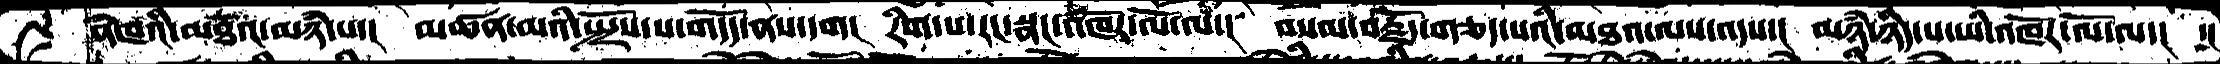ནཾཁའི་མཐའ་མཉཾ་པ་། མཚན་མའི་སྤྲོས་པ་གདོད་ནས་དག། རིག་པ་རང་སྣང་འཁོར་ལོ་ལ་། བསམ་བརྗོད་གཅད་པའི་མཐའ་ལས་འདས་། མཉཾ་ཉིད་པ་ཡི་འཁོར་ལོ་ལ་། ་།
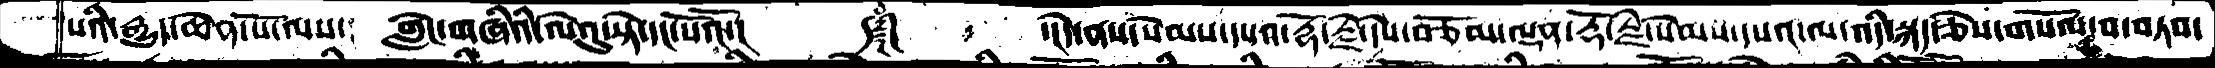པའི་རྒྱུད་ཆེན་པོ་ལས་། གླེང་གཞིའི་ལེའུ་སྟེ་དང་པོའོ་།     ༼༈༽   ་།དེ་ནས་སེམས་དཔའ་རྡོ་རྗེ་དེས་བཅོམ་ལྡན་རྡོ་རྗེ་སེམས་དཔའ་ལ་འདི་སྐད་ཅེས་གསོལ་བ་བཏབ་
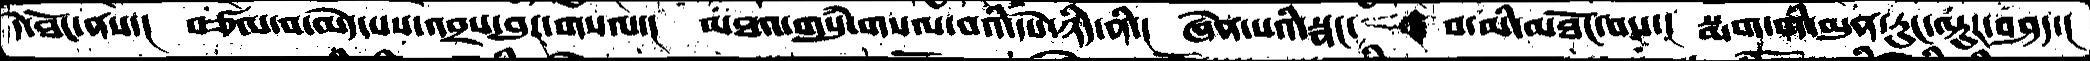དེ་ཐོང་ནས་། བཙལ་བ་མེད་པས་འབྲས་བུར་གསལ་། མཐའ་གསུཾ་གསལ་བའི་དཔེ་ཉིད་ནི་། ཞེན་པའི་སྣང་  བ་མི་མཐོང་བས་། སྨག་གི་མུན་རུང་ལྟུར་བཤད་།
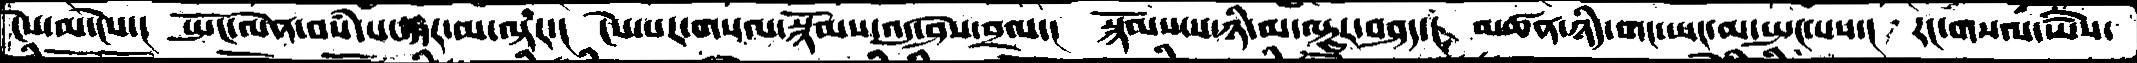ངེས་མ་ངེས་། སྤོང་ལེན་བསཾ་པ་སྐར་མ་ལྟར་། ངེས་པར་གསལ་སྙོམས་འདུ་ཤེས་བྲལ་། སྙོམས་པ་ཉི་མ་ལྟུར་བཤད་། མཚན་ཉིད་གང་ཡང་མ་སྤང་པས་། རང་གསལ་ཡཻས་
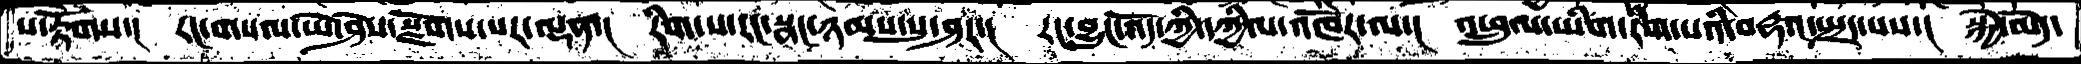པ་རྟོགས་། རང་གསལ་ཡེ་ཤེས་སྫོགས་པར་ལྡན་། རིག་པ་རང་སྣང་ཉམས་སུ་ཤར་། རང་བྱུང་འོད་ཀྱི་དཀྱིལ་འཁོར་ལ་། འཕྲུལ་ཡིག་རིག་པའི་བརྡའ་སྤྲད་པས་། སྐྱེེ་མེད་
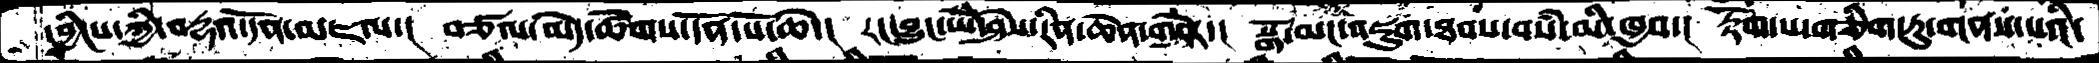དབྱིངས་ཀྱི་བརྡའ་དོན་མཇལ་། བཙལ་མེད་ཚོགས་དོན་པོ་ཆེ་། རང་བྱུང་ཡེ་ཤེས་རིན་ཆེན་གཏེར་། སྒོ་མང་འཇུག་ཐབས་བསཾ་མི་ཁྱབ་། རྟོག་པ་གཅིག་ཏུ་གནས་པའི་
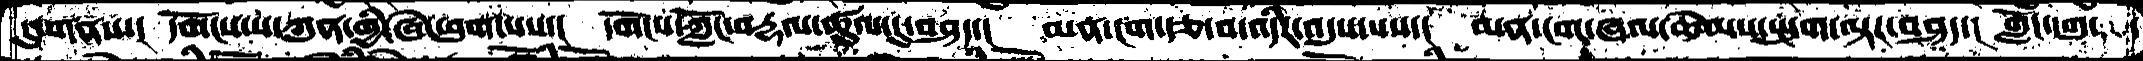དུ་གནས་། དགོངས་པ་ཀུན་གྱི་ཞེ་ཕུག་པས་། དགོངས་ཀློང་བརྡལ་ཚུལ་དུ་བཤད་། མན་ངག་རྩ་བ་འདིར་འདུས་པས་། མན་ངག་ཞལ་ཆེམས་སྤུག་ལྟར་བཤད་། གློང་དགུན་
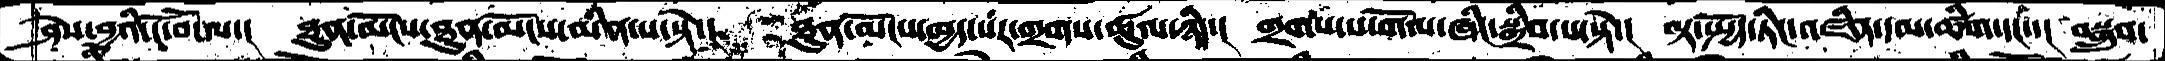ཤེས་བྱའི་ངོ་བོ་ལ་། ཐུན་མོངས་ཐུན་མོངས་མིན་པ་སྟེ་། ཐུན་མོངས་ཁྱད་པར་གྲགས་ཚུལ་ཉིད་། གྲགས་པ་གོལ་ཞིང་སྒྲིབ་པ་སྟེ་། ལྟ་སྤྱོད་ཏིང་འཛིན་དམ་ཚིག་དང་་། བསྒྲུབ་
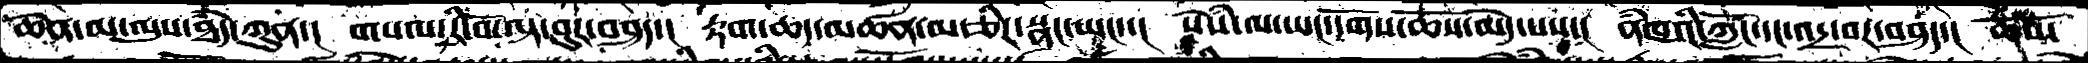ཆེན་མ་ལུས་ཐཾད་ཀུན་།  གསལ་རི་བོ་ལྟ་བུར་བཤད་།  རྟག་ཆད་མཚན་མ་ཅིར་སྣང་ཡང་་།  སེསཾ་ལ་ཡང་དོགས་ཆོས་མེད་པས་།  ནཾཁའི་ཀློང་དང་འདྲ་བར་བཤད་།  ཆོས་
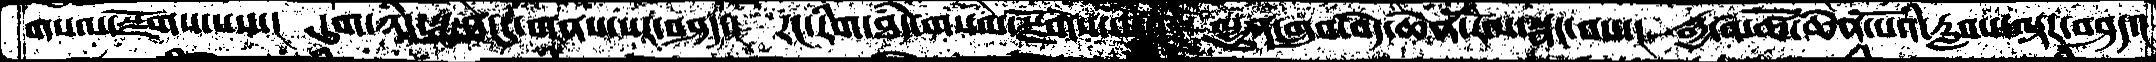གསལ་སྫོགས་པས་།  དུག་ཉིད་སྨན་དུ་གནས་པར་བཤད་།  རང་རིག་ཐཾད་གསལ་སྫོགས་པས་།  ལྷུན་གྲུབ་བདེ་ཆེན་རོལ་སྣང་བས་།  རྒྱ་མཚོ་ཆེན་པོའི་རླབས་ལྟར་བཤད་།
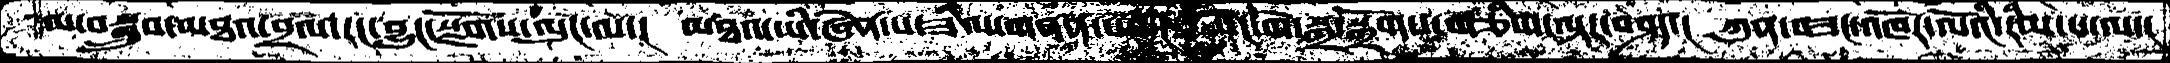མ་བསྒྲུབ་མཐའ་བྲལ་རང་བྱུང་སྫོགས་ལུང་ལ་། མཐའ་ཡི་ཞེན་པ་ཟིལ་གནན་པའི་། སེང་གེ་སྒྲ་སྒྲོགས་གཅིག་ལྟར་བཤད་། ཀུན་བཟང་འཁོར་ལོའི་རིམ་པ་ལ་།
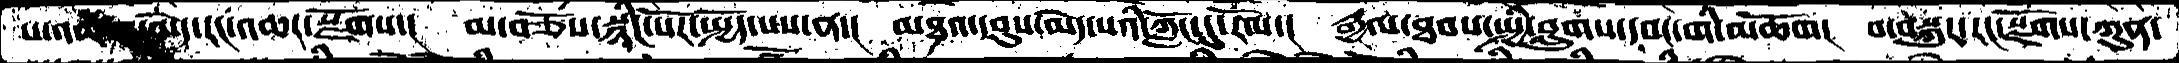པ་འཚག་མེད་རང་འཆར་སྫོགས་། མ་བཅོས་སྙིང་པོར་སྤྱོད་པས་ན་། མཐའ་དབུས་མེད་པའི་ཀློང་དུ་རོལ་། རྒྱལ་ཐབས་སྤྱི་བླུགས་དབང་གི་མཆོག། བ་བསྐུར་རང་སྫོགས་ཀུན་
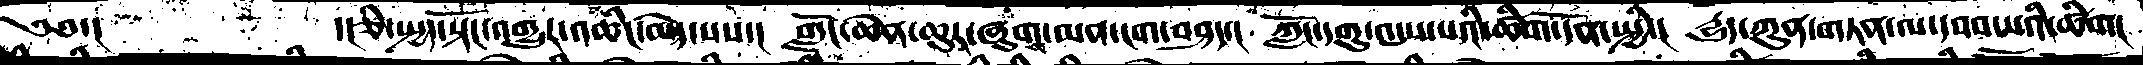༄༅་།    ་།ཅི་སྤྱད་སྟོང་འགྱུར་འཆིང་མེད་པས་། ཀློང་ཆེན་ཆུར་ཞུགས་མན་ངག་བཤད་། ཀློང་དགུ་འདུས་པའི་ཚིག་དོན་སྤྱི་། དྱུད་ཀུན་གཏན་ལ་དབབ་པའི་ཚིག།
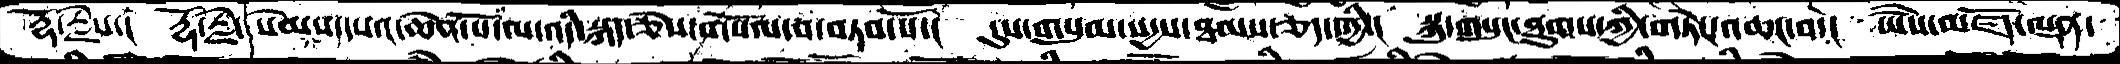རྡོ་རྗེས་། རྡོ་རྗེ་སེམས་དཔའ་ཆེན་པོ་ལ་འདི་སྐད་ཅེས་གསོལ་བ་བཏབ་སོ་། དུས་གསུམ་སདྱས་ཐམས་ཅད་ཀྱི་། སྐུ་གསུང་ཐུགས་ཀྱི་གཏེར་འཆང་བ་། ཡཻས་མཛོད་ལྡན་
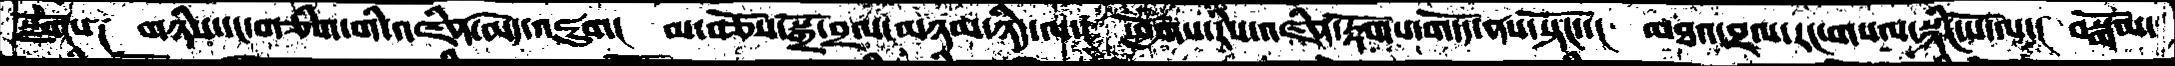སྫོགས་། གཉིས་དང་གཅིག་གི་འཛིན་མེེད་འཇུག། མ་བཅོས་སྒྲོ་བྲལ་མཉམ་ཉིད་ལ་། ཕྱོགས་རིས་འཛིན་རྟོགས་གདོད་ནས་སྟོང་་། མཐའ་བྲལ་རང་གསལ་སྙིང་པོ་ལ་། བསྒོམ་
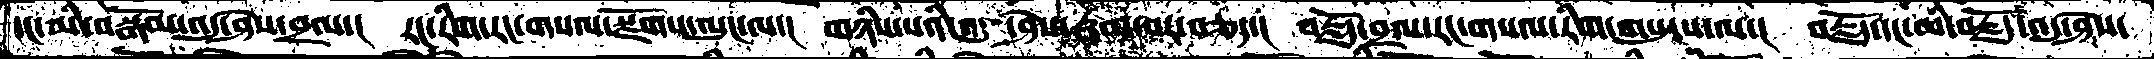དང་མི་བསྒོམ་འདུ་ཤེས་བྲལ་། རང་རིག་རང་གསལ་སྫོགས་ལུང་ལ་།  གཉིས་པའི་འདུ་ཤེས་རྣམ་པར་བཅད་།  བརྗོད་བྲལ་རང་གསལ་རིག་གསུངས་ལ་།  བརྗོད་དང་མི་བརྗོད་འདུ་ཤེས་
